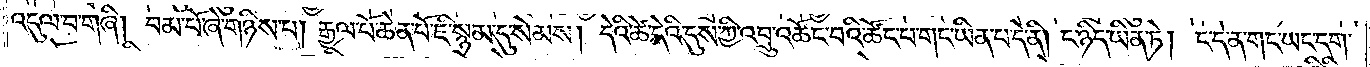འདུལ་བ་གཞི། བམ་པོ་ཞེ་གཉིས་པ། རྒྱལ་པོ་ཆེན་པོ་ཇི་སྙམ་དུ་སེམས། དེའི་ཚེ་དེའི་དུས་ཀྱི་འབྲུ་འཚོང་བའི་ཚོང་པ་གང་ཡིན་པ་དེ་ནི། ང་ཉིད་ཡིན་ཏེ། ང་དེ་ན་གང་ཡང་དག་
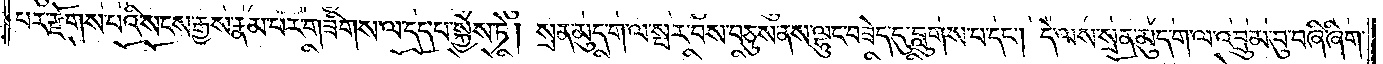པར་རྫོགས་པའི་སངས་རྒྱས་རྣམ་པར་གཟིགས་ལ་དད་པ་སྐྱེས་ཏེ། སྲན་མུད་ག་ལ་སྤར་བས་བཅུས་ནས་ལྷུང་བཟེད་དུ་བླུགས་པ་དང༌། དེ་ལས་སྲན་མུད་ག་ལ་འབྲུམ་བུ་བཞི་ཞིག་
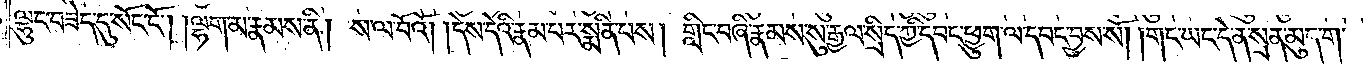ལྷུང་བཟེད་དུ་སོང་ངོ༌། །ལྷག་མ་རྣམས་ནི། ས་ལ་བོའོ། །དེས་དེའི་རྣམ་པར་སྨིན་པས། གླིང་བཞི་རྣམས་སུ་རྒྱལ་སྲིད་ཀྱི་དབང་ཕྱུག་ལ་དབང་བྱས་སོ། །གང་ཡང་དེ་ནས་སྲན་མུད་ག་
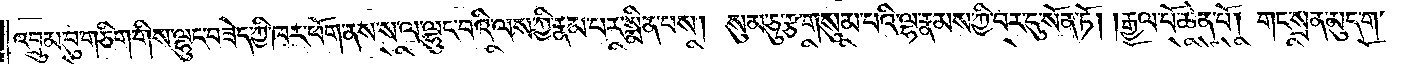འབྲུམ་བུ་གཅིག་གིས་ལྷུང་བཟེད་ཀྱི་ཁར་ཕོག་ནས་ས་ལ་ལྷུང་བའི་ལས་ཀྱི་རྣམ་པར་སྨིན་པས། སུམ་ཅུ་རྩ་གསུམ་པའི་ལྷ་རྣམས་ཀྱི་བར་དུ་སོན་ཏོ། །རྒྱལ་པོ་ཆེན་པོ། གང་སྲན་མུད་ག་
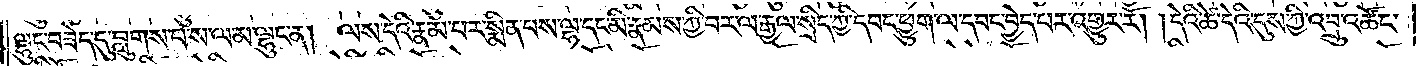ལྷུང་བཟེད་དུ་བླུགས་པ་ས་ལ་མ་ལྷུང་ན། ལས་དེའི་རྣམ་པར་སྨིན་པས་ལྷ་དང་མི་རྣམས་ཀྱི་བར་ལ་རྒྱལ་སྲིད་ཀྱི་དབང་ཕྱུག་ལ་དབང་བྱེད་པར་འགྱུར་རོ། །དེའི་ཚེ་དེའི་དུས་ཀྱི་འབྲུ་འཚོང་
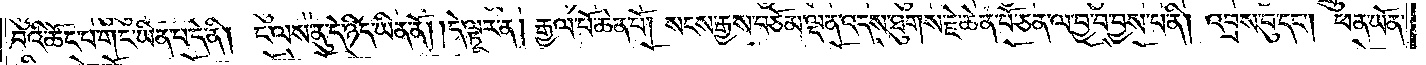བའི་ཚོང་པ་གང་ཡིན་པ་དེ་ནི། ང་ལས་ནུ་དེ་ཉིད་ཡིན་ནོ། །དེ་ལྟར་ན། རྒྱལ་པོ་ཆེན་པོ། སངས་རྒྱས་བཅོམ་ལྡན་འདས་ཐུགས་རྗེ་ཆེན་པོ་ཅན་ལ་བྱ་བ་བྱས་པ་ནི། འབྲས་བུ་དང༌། ཕན་ཡོན་
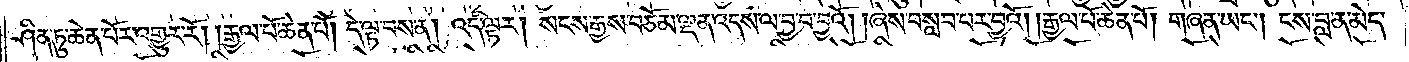ཤིན་ཏུ་ཆེན་པོར་འགྱུར་རོ། །རྒྱལ་པོ་ཆེན་པོ། དེ་ལྟ་བས་ན། འདི་ལྟར། སངས་རྒྱས་བཅོམ་ལྡན་འདས་ལ་བྱ་བ་བྱའོ། །ཞེས་བསླབ་པར་བྱའོ།    །རྒྱལ་པོ་ཆེན་པོ། གཞན་ཡང༌། ངས་བླ་ན་མེད་
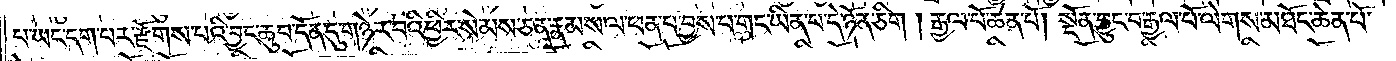པ་ཡང་དག་པར་རྫོགས་པའི་བྱང་ཆུབ་དོན་དུ་གཉེར་བའི་ཕྱིར་སེམས་ཅན་རྣམས་ལ་ཕན་པ་བྱས་པ་གང་ཡིན་པ་དེ་ཉོན་ཅིག། རྒྱལ་པོ་ཆེན་པོ། སྔོན་བྱུང་བ་རྒྱལ་པོ་ལེགས་མཐོང་ཆེན་པོ་
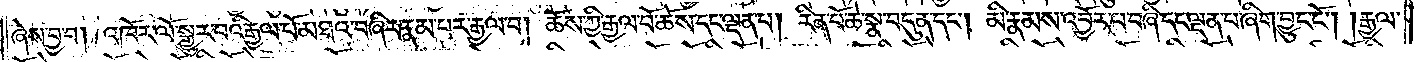ཞེས་བྱ་བ། འཁོར་ལོ་སྒྱུར་བའི་རྒྱལ་པོ་མཐའ་བཞིར་རྣམ་པར་རྒྱལ་བ། ཆོས་ཀྱི་རྒྱལ་པོ་ཆོས་དང་ལྡན་པ། རིན་པོ་ཆེ་སྣ་བདུན་དང༌། མི་རྣམས་འབྱོར་པ་བཞི་དང་ལྡན་པ་ཞིག་བྱུང་ངོ༌། །རྒྱལ་
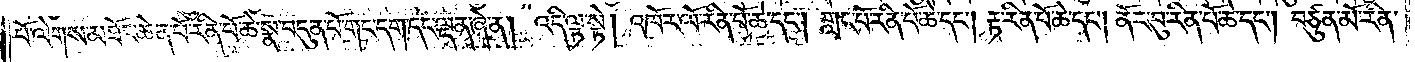པོ་ལེགས་མཐོང་ཆེན་པོ་རིན་པོ་ཆེ་སྣ་བདུན་པོ་གང་དག་དང་ལྡན་ཞེ་ན། འདི་ལྟ་སྟེ། འཁོར་ལོ་རིན་པོ་ཆེ་དང༌། གླང་པོ་རིན་པོ་ཆེ་དང༌། རྟ་རིན་པོ་ཆེ་དང༌། ནོར་བུ་རིན་པོ་ཆེ་དང༌། བཙུན་མོ་རིན་
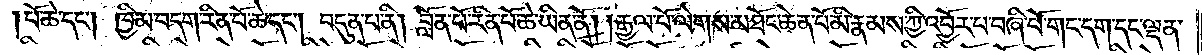པོ་ཆེ་དང༌། ཁྱིམ་བདག་རིན་པོ་ཆེ་དང༌། བདུན་པ་ནི། བློན་པོ་རིན་པོ་ཆེ་ཡིན་ནོ། །རྒྱལ་པོ་ལེགས་མཐོང་ཆེན་པོ་མི་རྣམས་ཀྱི་འབྱོར་པ་བཞི་པོ་གང་དག་དང་ལྡན་
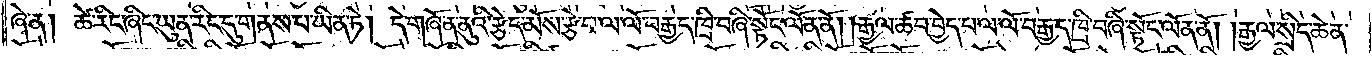ཞེ་ན། ཚེ་རིང་ཞིང་ཡུན་རིང་དུ་གནས་པ་ཡིན་ཏེ། དེ་གཞོན་ནུའི་རྩེད་མོས་རྩེ་བ་ལ་ལོ་བརྒྱད་ཁྲི་བཞི་སྟོང་ལོན་ནོ། །རྒྱལ་ཚབ་བྱེད་པ་ལ་ལོ་བརྒྱད་ཁྲི་བཞི་སྟོང་ལོན་ནོ། །རྒྱལ་སྲིད་ཆེན་
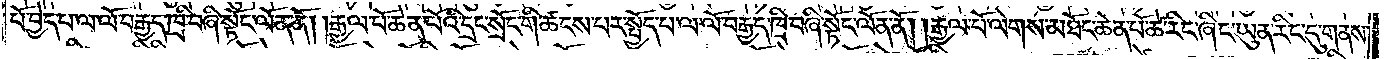པོ་བྱེད་པ་ལ་ལོ་བརྒྱད་ཁྲི་བཞི་སྟོང་ལོན་ནོ། །རྒྱལ་པོ་ཆེན་པོའི་དྲང་སྲོང་གི་ཚངས་པར་སྤྱོད་པ་ལ་ལོ་བརྒྱད་ཁྲི་བཞི་སྟོང་ལོན་ནོ། །རྒྱལ་པོ་ལེགས་མཐོང་ཆེན་པོ་ཚེ་རིང་ཞིང་ཡུན་རིང་དུ་གནས་
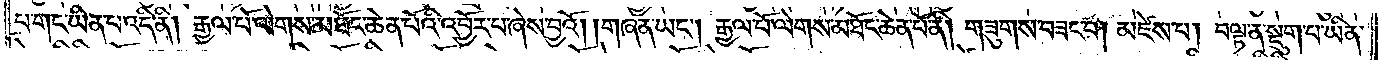པ་གང་ཡིན་པ་འདི་ནི། རྒྱལ་པོ་ལེགས་མཐོང་ཆེན་པོའི་འབྱོར་པ་ཞེས་བྱའོ། །གཞན་ཡང༌། རྒྱལ་པོ་ལེགས་མཐོང་ཆེན་པོ་ནི། གཟུགས་བཟང་བ། མཛེས་པ། བལྟ་ན་སྡུག་པ་ཡིན་
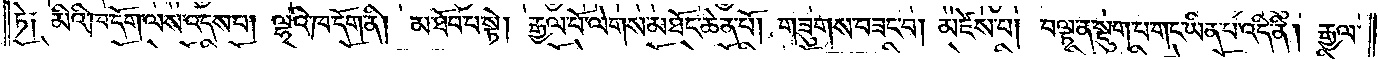ཏེ༑ མིའི་ཁ་དོག་ལས་འདས་པ། ལྷའི་ཁ་དོག་ནི། མ་ཐོབ་པ་སྟེ། རྒྱལ་པོ་ལེགས་མཐོང་ཆེན་པོ། གཟུགས་བཟང་བ། མཛེས་པ། བལྟ་ན་སྡུག་པ་གང་ཡིན་པ་འདི་ནི། རྒྱལ་
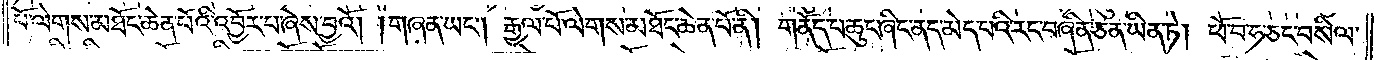པོ་ལེགས་མཐོང་ཆེན་པོའི་འབྱོར་པ་ཞེས་བྱའོ། །གཞན་ཡང༌། རྒྱལ་པོ་ལེགས་མཐོང་ཆེན་པོ་ནི། གནོད་པ་ཆུང་ཞིང་ནད་མེད་པའི་རང་བཞིན་ཅན་ཡིན་ཏེ། ཕོ་བ་ཧ་ཅང་བསིལ་
